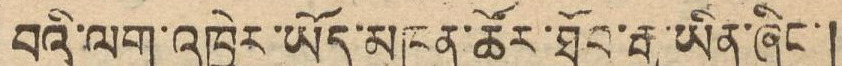བའི་ལག་འཁྱེར་ཡོད་མཁན་ཚོར་ཐོབ་རྒྱུ་ཡིན་ཞིང་།
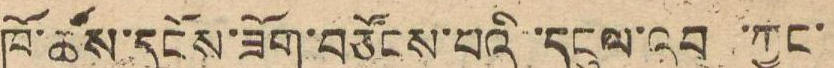ཁོ་ཚོས་དངོས་ཟོག་བཙོངས་པའི་དངུལ་འབབ་ཀྱང་
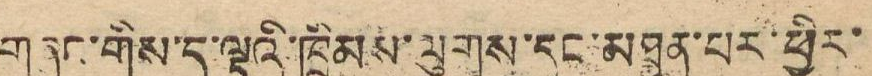གཞུང་གིས་ད་ལྟའི་ཁྲིམས་ལུགས་དང་མཐུན་པར་ཕྱིར་
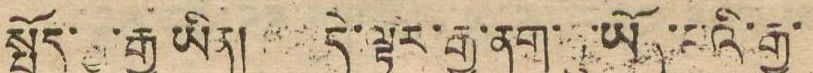སྤྲོད་ ་རྒྱུ་ཡིན། དེ་ལྟར་རྒྱ་ནག་ཏུ་ཡོད་པའི་རྒྱ་
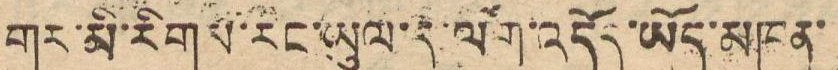གར་མི་རིགས་རང་ཡུལ་དུ་ལོག་འདོད་ཡོད་མཁན་
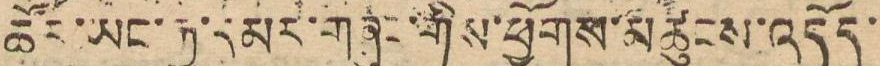ཚོར་ཡང་རྒྱ་དམར་གཞུང་གིས་ཕྱོགས་མཚུངས་འདོད་
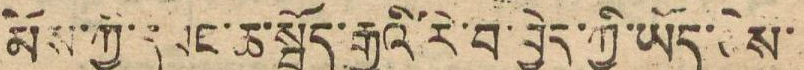མོས་ཀྱི་དབང་ཆ་སྤྲོད་རྒྱུའི་རེ་བ་བྱེད་ཀྱི་ཡོད་ཅེས་
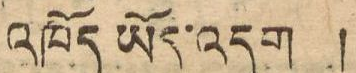འཁོད ཡོད་འདུག །
